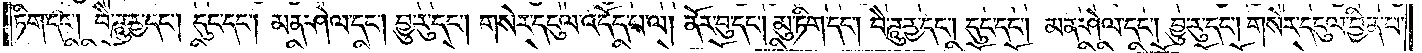ཏིག་དང༌། བཻ་ཌཱུཪྻ་དང༌། དུང་དང༌། མན་ཤེལ་དང༌། བྱུ་རུ་དང༌། གསེར་དངུལ་འདོད་པ་ལ། ནོར་བུ་དང༌། མུ་ཏིག་དང༌། བཻ་ཌཱུཪྻ་དང༌། དུང་དང༌། མན་ཤེལ་དང༌། བྱུ་རུ་དང༌། གསེར་དངུལ་བྱིན་པ་
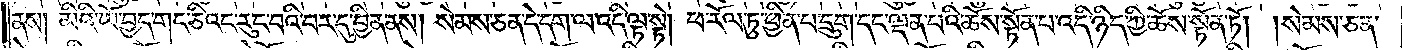ནས། མིའི་ཡོ་བྱད་གང་ཅིའང་རུང་བའི་བར་དུ་བྱིན་ནས། སེམས་ཅན་དེ་དག་ལ་འདི་ལྟ་སྟེ། ཕ་རོལ་ཏུ་ཕྱིན་པ་དྲུག་དང་ལྡན་པའི་ཆོས་སྟོན་པ་འདི་ཉིད་ཀྱི་ཆོས་སྟོན་ཏོ། །སེམས་ཅན་
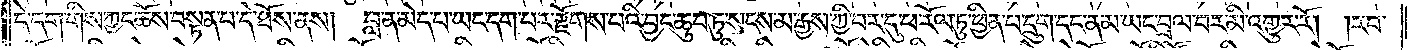དེ་དག་གིས་ཀྱང་ཆོས་བསྟན་པ་དེ་ཐོས་ནས། བླ་ན་མེད་པ་ཡང་དག་པར་རྫོགས་པའི་བྱང་ཆུབ་ཏུ་སངས་མ་རྒྱས་ཀྱི་བར་དུ་ཕ་རོལ་ཏུ་ཕྱིན་པ་དྲུག་དང་ནམ་ཡང་བྲལ་བར་མི་འགྱུར་རོ། །རབ་
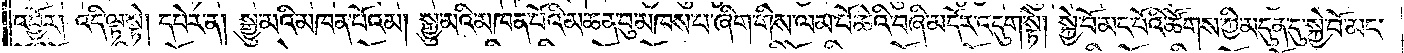འབྱོར། འདི་ལྟ་སྟེ། དཔེར་ན། སྒྱུ་མའི་མཁན་པོ་འམ། སྒྱུ་མའི་མཁན་པོའི་མཆན་བུ་མཁས་པ་ཞིག་གིས་ལམ་པོ་ཆེའི་བཞི་མདོར་འདུག་སྟེ། སྐྱེ་བོ་མང་པོའི་ཚོགས་ཀྱི་མདུན་དུ་སྐྱེ་བོ་མང་
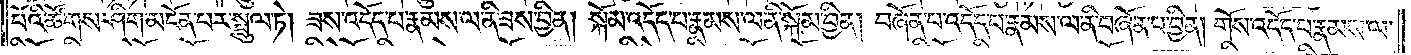པོའི་ཚོགས་ཤིག་མངོན་པར་སྤྲུལ་ཏེ། ཟས་འདོད་པ་རྣམས་ལ་ནི་ཟས་བྱིན། སྐོམ་འདོད་པ་རྣམས་ལ་ནི་སྐོམ་བྱིན། བཞོན་པ་འདོད་པ་རྣམས་ལ་ནི་བཞོན་པ་བྱིན། གོས་འདོད་པ་རྣམས་ལ་
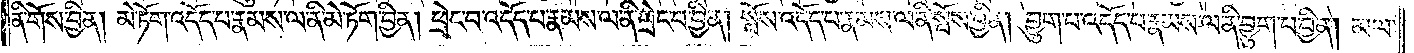ནི་གོས་བྱིན། མེ་ཏོག་འདོད་པ་རྣམས་ལ་ནི་མེ་ཏོག་བྱིན། ཕྲེང་བ་འདོད་པ་རྣམས་ལ་ནི་ཕྲེང་བ་བྱིན། སྤོས་འདོད་པ་རྣམས་ལ་ནི་སྤོས་བྱིན། བྱུག་པ་འདོད་པ་རྣམས་ལ་ནི་བྱུག་པ་བྱིན། མལ་
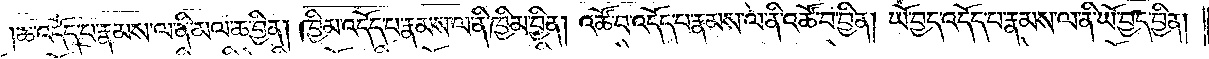ཆ་འདོད་པ་རྣམས་ལ་ནི་མལ་ཆ་བྱིན། ཁྱིམ་འདོད་པ་རྣམས་ལ་ནི་ཁྱིམ་བྱིན། འཚོ་བ་འདོད་པ་རྣམས་ལ་ནི་འཚོ་བ་བྱིན། ཡོ་བྱད་འདོད་པ་རྣམས་ལ་ནི་ཡོ་བྱད་བྱིན།
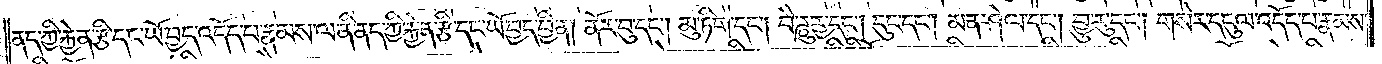ནད་ཀྱི་རྐྱེན་རྩི་དང་ཡོ་བྱད་འདོད་པ་རྣམས་ལ་ནི་ནད་ཀྱི་རྐྱེན་རྩི་དང་ཡོ་བྱང་བྱིན། ནོར་བུ་དང༌། མུ་ཏིག་དང༌། བཻ་ཌཱུཪྻ་དང༌། དུང་དང༌། མན་ཤེལ་དང༌། བྱུ་རུ་དང༌། གསེར་དངུལ་འདོད་པ་རྣམས་
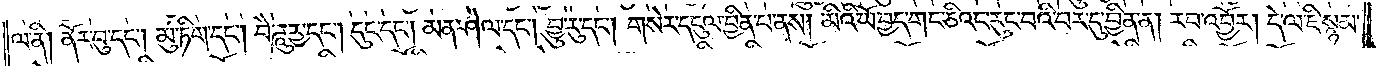ལ་ནི། ནོར་བུ་དང༌། མུ་ཏིག་དང༌། བཻ་ཌཱུཪྻ་དང༌། དུང་དང༌། མན་ཤེལ་དང༌། བྱུ་རུ་དང༌། གསེར་དངུལ་བྱིན་པ་ནས། མིའི་ཡོ་བྱད་གང་ཅིའང་རུང་བའི་བར་དུ་བྱིན་ན། རབ་འབྱོར། དེ་ལ་ཇི་སྙམ་
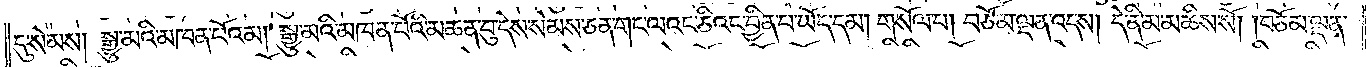དུ་སེམས། སྒྱུ་མའི་མཁན་པོ་འམ། སྒྱུ་མའི་མཁན་པོའི་མཆན་བུ་དེས་སེམས་ཅན་གང་ལའང་ཅིའང་བྱིན་པ་ཡོད་དམ། གསོལ་བ། བཅོམ་ལྡན་འདས། དེ་ནི་མ་མཆིས་སོ། །བཅོམ་ལྡན་
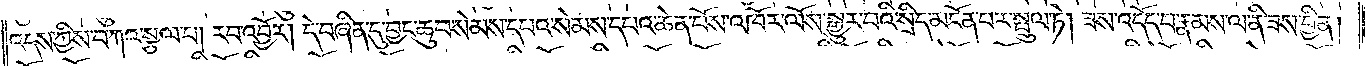འདས་ཀྱིས་བཀའ་སྩལ་པ། རབ་འབྱོར། དེ་བཞིན་དུ་བྱང་ཆུབ་སེམས་དཔའ་སེམས་དཔའ་ཆེན་པོས་འཁོར་ལོས་སྒྱུར་བའི་སྲིད་མངོན་པར་སྤྲུལ་ཏེ། ཟས་འདོད་པ་རྣམས་ལ་ནི་ཟས་བྱིན།
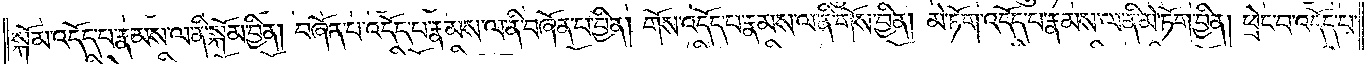སྐོམ་འདོད་པ་རྣམས་ལ་ནི་སྐོམ་བྱིན། བཞོན་པ་འདོད་པ་རྣམས་ལ་ནི་བཞོན་པ་བྱིན། གོས་འདོད་པ་རྣམས་ལ་ནི་གོས་བྱིན། མེ་ཏོག་འདོད་པ་རྣམས་ལ་ནི་མེ་ཏོག་བྱིན། ཕྲེང་བ་འདོད་པ་
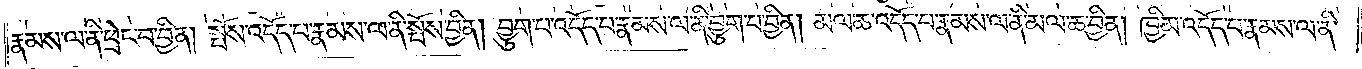རྣམས་ལ་ནི་ཕྲེང་བ་བྱིན། སྤོས་འདོད་པ་རྣམས་ལ་ནི་སྦོས་བྱིན། བྱུག་པ་འདོད་པ་རྣམས་ལ་ནི་བྱུག་པ་བྱིན། མལ་ཆ་འདོད་པ་རྣམས་ལ་ནི་མལ་ཆ་བྱིན། ཁྱིམ་འདོད་པ་རྣམས་ལ་ནི་
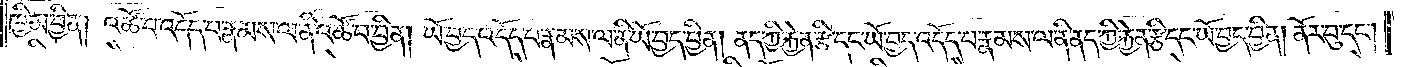ཁྱིམ་བྱིན། འཚོ་བ་འདོད་པ་རྣམས་ལ་ནི་འཚོ་བ་བྱིན། ཡོ་བྱད་འདོད་པ་རྣམས་ལ་ནི་ཡོ་བྱད་བྱིན། ནད་ཀྱི་རྐྱེན་རྩི་དང་ཡོ་བྱད་འདོད་པ་རྣམས་ལ་ནི་ནད་ཀྱི་རྐྱེན་རྩི་དང་ཡོ་བྱང་བྱིན། ནོར་བུ་དང༌།
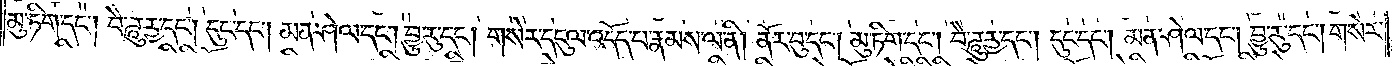མུ་ཏིག་དང༌། བཻ་ཌཱུཪྻ་དང༌། དུང་དང༌། མན་ཤེལ་དང༌། བྱུ་རུ་དང༌། གསེར་དངུལ་འདོད་པ་རྣམས་ལ་ནི། ནོར་བུ་དང༌། མུ་ཏིག་དང༌། བཻ་ཌཱུཪྻ་དང༌། དུང་དང༌། མན་ཤེལ་དང༌། བྱུ་རུ་དང༌། གསེར་
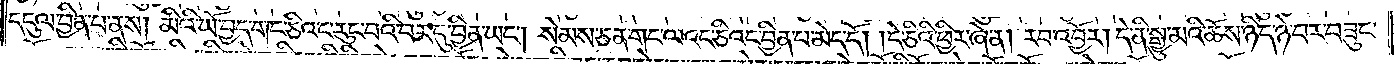དངུལ་བྱིན་པ་ནས། མིའི་ཡོ་བྱད་གང་ཅིའང་རུང་བའི་བར་དུ་བྱིན་ཡང༌། སེམས་ཅན་གང་ལའང་ཅིའང་བྱིན་པ་མེད་དོ། །དེ་ཅིའི་ཕྱིར་ཞེ་ན། རབ་འབྱོར། དེ་ནི་སྒྱུ་མའི་ཆོས་ཉིད་ཉེ་བར་བཟུང་
